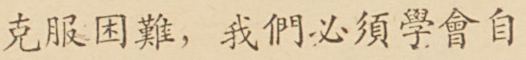克服困難，我們必須學會自
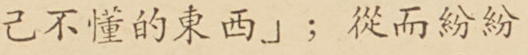己不懂的東西」；從而紛紛
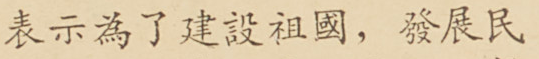表示爲了建設祖國，發展民
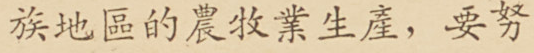族地區的農牧業生產，要努
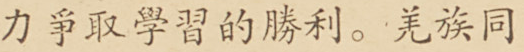力爭取學習的勝利。羌族同
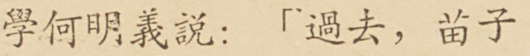學何明義說：「過去，苗子
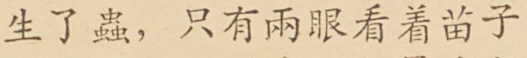生了蟲，只有兩眼看着苗子
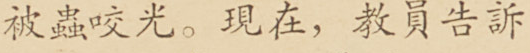被蟲咬光。現在，教員告訴
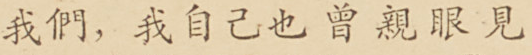我們，我自己也曾親眼見
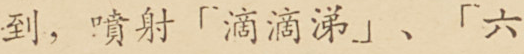到，噴射「滴滴涕」、「六
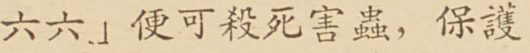六六」便可殺死害蟲，保護
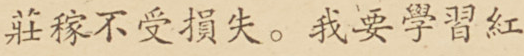莊稼不受損失。我要學習紅
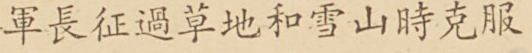軍長征過草地和雪山時克服
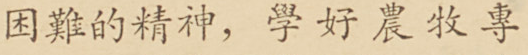困難的精神，學好農牧專
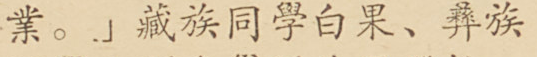業。」藏族同學白果、彝族
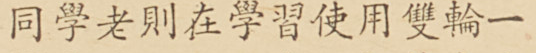同學老則在學習使用雙輪一
